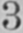3
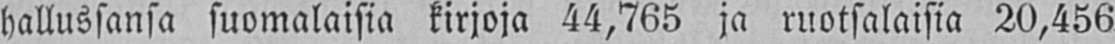hallussansa suomalaisia kirjoja 44,765 ja ruotsalaisia 20,456
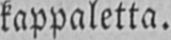kappaletta.
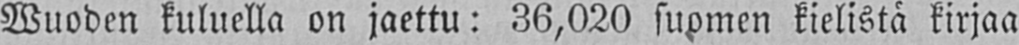Wuoden kuluella on jaettu: 36,020 suomen kielistä kirjaa
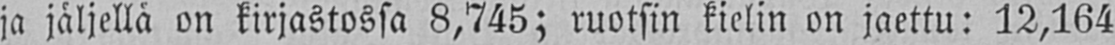ja jäljellä on kirjastossa 8,745; ruotsin kielin on jaettu: 12,164
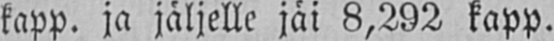kapp. ja jäljelle jåi 8,292 kapp.
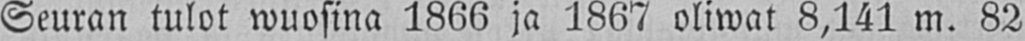Seuran tulot wuosina 1866 ja 1867 oliwat 8,141 m. 82
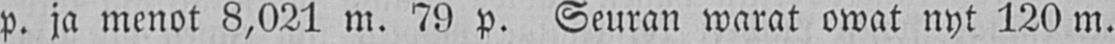p. ja menot 8,021 m. 79 p. Seuran warat owat nyt 120 m.
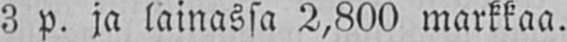3 p. ja lainassa 2,800 markkaa.
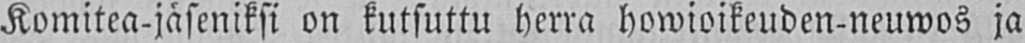Komitea-jäseniksi on kutsuttu herra howioikeuden-neuwos ja
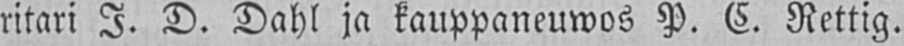ritari J. D. Dahl ja kauppaneuwos P. C. Rettig.
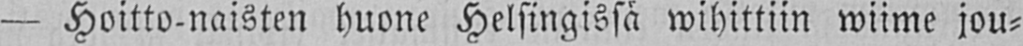— Hoitto-naisten huone Helsingissä wihittiin wiime jou-
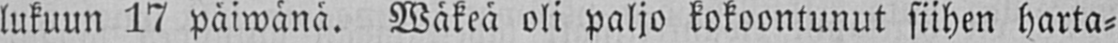lukuun 17 päiwänä. Wäkeä oli paljo kokoontunur siihen harta-
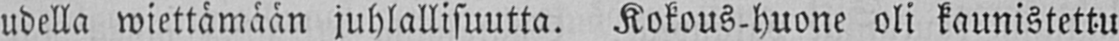udella wiettämään juhlallisuutta. Kokous-huone oli kaunistettu
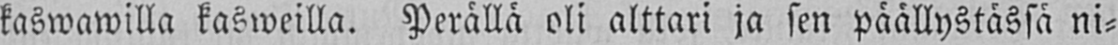kaswawilla kasweilla. Perällä oli alttari ja sen päällystässä ni-
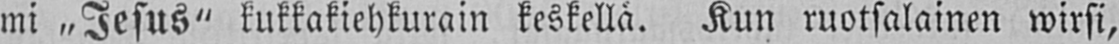mi „Jesus" kukkakiehkurain keskellä. Kun ruotsalainen wirsi,
